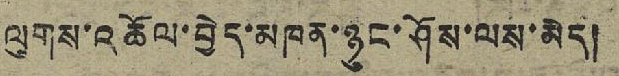ལུགས་འཆོལ་བྱེད་མཁན་ཉུང་ཤོས་ལས་མེད།
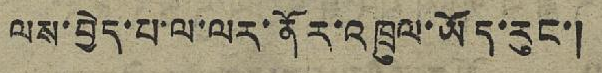ལས་བྱེད་པ་ལ་ལར་ནོར་འཁྲུལ་ཡོད་རུང་།
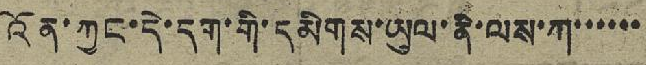འོན་ཀྱང་དེ་དག་གི་དམིགས་ཡུལ་ནི་ལས་ཀ་་་་་་
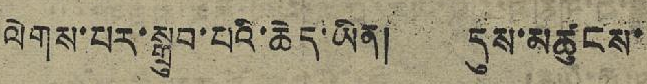ལེགས་པར་སྒྲུབ་པའི་ཆེད་ཡིན། དུས་མཚུངས་
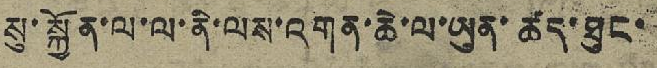སུ་སྐྱོན་ལ་ལ་ནི་ལས་འགན་ཆེ་ལ་ཡུན་ཚད་ཐུང་
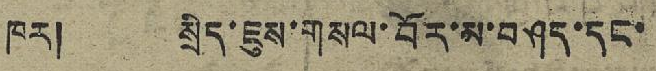ཁར། སྲིད་ཇུས་གསལ་བོར་མ་བཤད་དང་
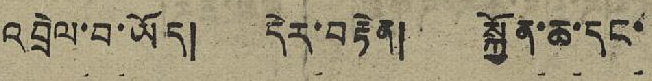འབྲེལ་བ་ཡོད། དེར་བརྟེན། སྐྱོན་ཆ་དང་
